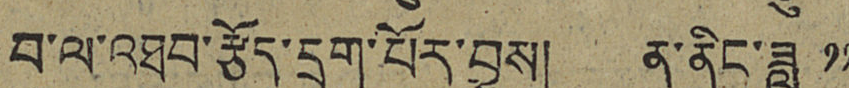བ་ལ་འཐབ་རྩོད་དྲག་པོར་བྱས། ན་ནིང་ཟླ ༡༡
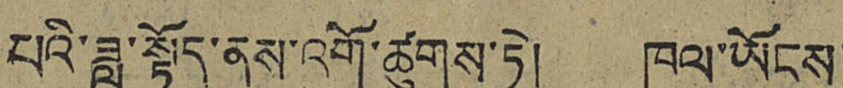པའི་ཟླ་སྟོད་ནས་འགོ་ཚུགས་ཏེ། ཁུལ་ཡོངས་
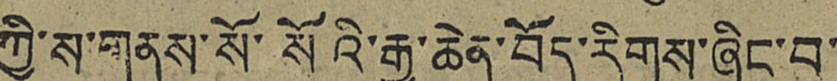ཀྱི་ས་གནས་སོ་སོའི་རྒྱ་ཆེན་བོད་རིགས་ཞིང་བ་
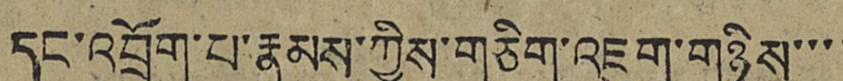དང་འབྲོག་པ་རྣམས་ཀྱིས་གཅིག་འཇུག་གཉིས་་་་
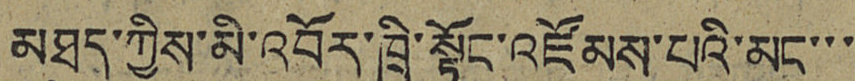མཐུད་ཀྱིས་མི་འབོར་ཁྲི་སྟོང་འཛོམས་པའི་མང་་་
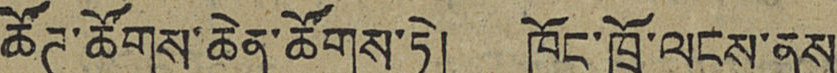ཚོཊ་ཚོགས་ཆེན་ཚོགས་ཏེ། ཁོང་ཁྲོ་ལངས་ནས་
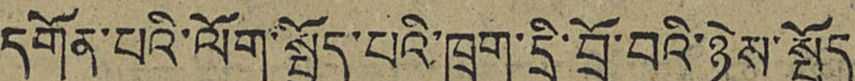དགོན་པའི་ལོག་སྤྱོད་པའི་ཁྲག་དྲི་བྲོ་བའི་ཉེས་སྤྱོད་
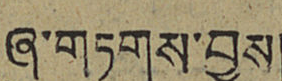ཞུ་གཏུགས་བྱས།
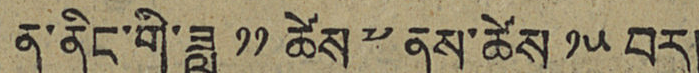ན་ནིང་གི་ཟླ ༡༡ ཚེས ༧ ནས་ཚེས ༡༥ བར།
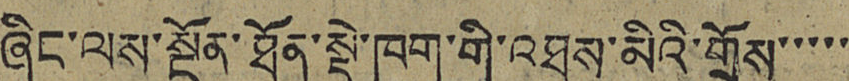ཞིང་ལས་སྔོན་ཐོན་སྡེ་ཁག་གི་འཐུས་མིའི་གྲོས་་་་་
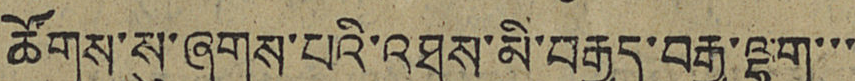ཚོགས་སུ་ཞུགས་པའི་འཐུས་མི་བརྒྱད་བརྒྱ་ལྷག་་་
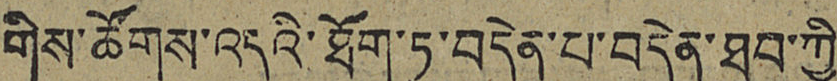གིས་ཚོགས་འདུའི་ཐོག་ཏུ་འདེན་པ་བདེན་ཐུབ་ཀྱི་
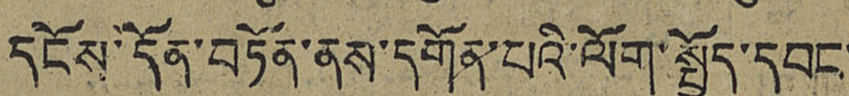དངོས་དོན་བཏོན་ནས་དགོན་པའི་ལོག་སྤྱོད་དབང་
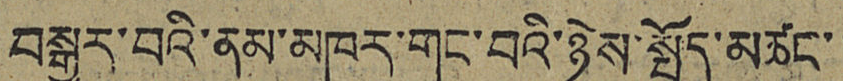བསྒྱུར་བའི་ནམ་མཁར་གང་བའི་ཉེས་སྤྱོད་མཚང་་
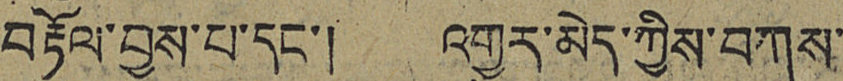བརྟོལ་བྱས་པ་དང་། འགྱུར་མེད་ཀྱིས་བཀས་
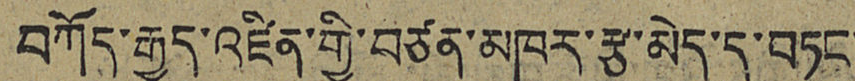བཀོད་རྒྱུད་འཛིན་གྱི་བཙན་མཁར་རྩ་མེད་དུ་བཏང་
